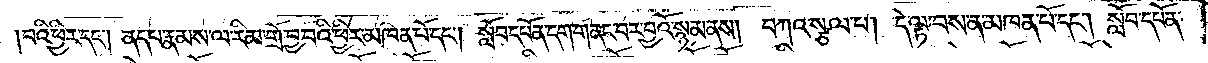བའི་ཕྱིར་དང༌། ནད་པ་རྣམས་ལ་རིམ་གྲོ་བྱ་བའི་ཕྱིར་མཁན་པོ་དང༌། སློབ་དཔོན་དག་གནང་བར་བྱའོ་སྙམ་ནས། བཀའ་སྩལ་པ། དེ་ལྟ་བས་ན་མཁན་པོ་དང༌། སློབ་དཔོན་
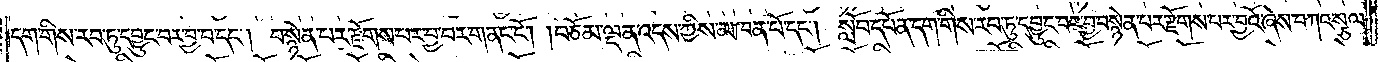དག་གིས་རབ་ཏུ་དབྱུང་བར་བྱ་བ་དང༌། བསྙེན་པར་རྫོགས་པར་བྱ་བར་གནང་ངོ༌། །བཅོམ་ལྡན་འདས་ཀྱིས་མཁན་པོ་དང༌། སློབ་དཔོན་དག་གིས་རབ་ཏུ་དབྱུང་བར་བྱ་བསྙེན་པར་རྫོགས་པར་བྱའོ་ཞེས་བཀའ་སྩལ་
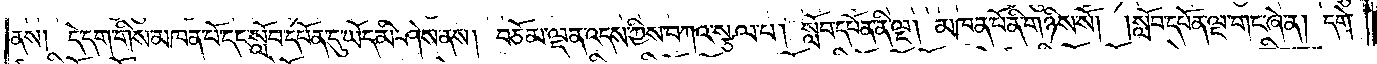ནས། དེ་དག་གིས་མཁན་པོ་དང་སློབ་དཔོན་དུ་ཡོད་མི་ཤེས་ནས། བཅོམ་ལྡན་འདས་ཀྱིས་བཀའ་སྩལ་པ། སློབ་དཔོན་ནི་ལྔ། མཁན་པོ་ནི་གཉིས་སོ། །སློབ་དཔོན་ལྔ་གང་ཞེ་ན། དགེ་
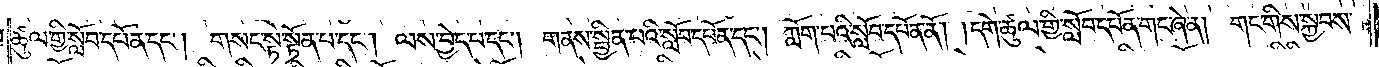ཚུལ་གྱི་སློབ་དཔོན་དང༌། གསང་སྟེ་སྟོན་པ་དང༌། ལས་བྱེད་པ་དང༌། གནས་སྦྱིན་པའི་སློབ་དཔོན་དང༌། ཀློག་པའི་སློབ་དཔོན་ནོ། །དགེ་ཚུལ་གྱི་སློབ་དཔོན་གང་ཞེ་ན། གང་གིས་སྐྱབས་
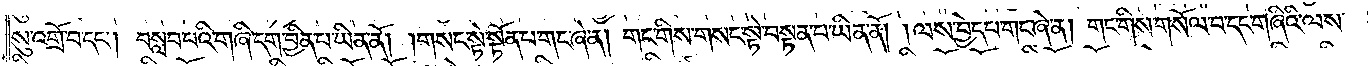སུ་འགྲོ་བ་དང༌། བསླབ་པའི་གཞི་དག་བྱིན་པ་ཡིན་ནོ། །གསང་སྟེ་སྟོན་པ་གང་ཞེ་ན། གང་གིས་གསང་སྟེ་བསྟན་པ་ཡིན་ནོ། །ལས་བྱེད་པ་གང་ཞེ་ན། གང་གིས་གསོལ་བ་དང་གཞིའི་ལས་
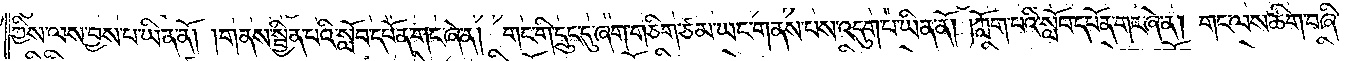ཀྱིས་ལས་བྱས་པ་ཡིན་ནོ། །གནས་སྦྱིན་པའི་སློབ་དཔོན་གང་ཞེ་ན། གང་གི་དྲུང་དུ་ཞག་གཅིག་ཙམ་ཡང་གནས་པས་འདུག་པ་ཡིན་ནོ། །ཀློག་པའི་སློབ་དཔོན་གང་ཞེ་ན། གང་ལས་ཚིག་བཞི་
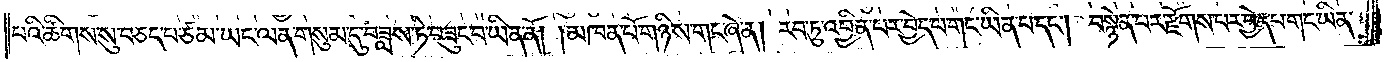པའི་ཚིགས་སུ་བཅད་པ་ཙམ་ཡང་ལན་གསུམ་དུ་བཟླས་ཏེ་བཟུང་བ་ཡིན་ནོ། །མཁན་པོ་གཉིས་གང་ཞེ་ན། རབ་ཏུ་འབྱིན་པར་བྱེད་པ་གང་ཡིན་པ་དང༌། བསྙེན་པར་རྫོགས་པར་བྱེད་པ་གང་ཡིན་
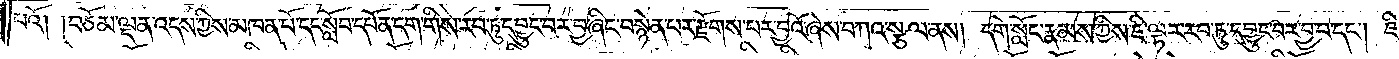པའོ། །བཅོམ་ལྡན་འདས་ཀྱིས་མཁན་པོ་དང་སློབ་དཔོན་དག་གིས་རབ་ཏུ་དབྱུང་བར་བྱ་ཞིང་བསྙེན་པར་རྫོགས་པར་བྱའོ་ཞེས་བཀའ་སྩལ་ནས། དགེ་སློང་རྣམས་ཀྱིས་ཇི་ལྟར་རབ་ཏུ་དབྱུང་བར་བྱ་བ་དང༌། ཇི་
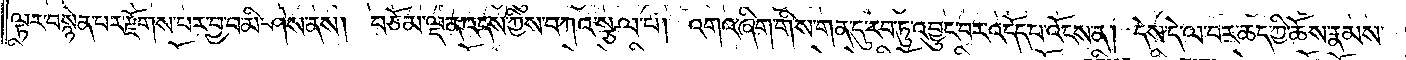ལྟར་བསྙེན་པར་རྫོགས་པ་བྱ་བ་མི་ཤེས་ནས། བཅོམ་ལྡན་འདས་ཀྱིས་བཀའ་སྩལ་པ། འགའ་ཞིག་གིས་གན་དུ་རབ་ཏུ་འབྱུང་བར་འདོད་པ་འོངས་ན། དེས་དེ་ལ་བར་ཆད་ཀྱི་ཆོས་རྣམས་
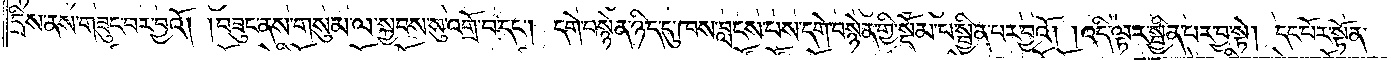དྲིས་ནས་གཟུང་བར་བྱའོ། །བཟུང་ནས་གསུམ་ལ་སྐྱབས་སུ་འགྲོ་བ་དང༌། དགེ་བསྙེན་ཉིད་དུ་ཁས་བླངས་པས་དགེ་བསྙེན་གྱི་སྡོམ་པ་སྦྱིན་པར་བྱའོ། །འདི་ལྟར་སྦྱིན་པར་བྱ་སྟེ། དང་པོར་སྟོན་
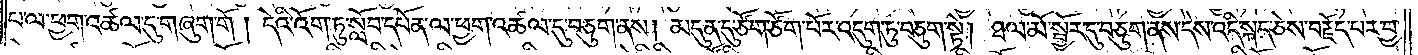པ་ལ་ཕྱག་འཚལ་དུ་གཞུག་གོ །དེའི་འོག་ཏུ་སློབ་དཔོན་ལ་ཕྱག་འཚལ་དུ་བཅུག་ནས། མདུན་དུ་ཙོག་ཙོག་པོར་འདུག་ཏུ་བཅུག་སྟེ། ཐལ་མོ་སྦྱོར་དུ་བཅུག་ནས་དེས་འདི་སྐད་ཅེས་བརྗོདཔར་བྱ་
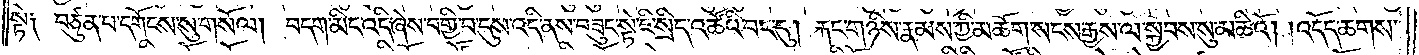སྟེ༑ བཙུན་པ་དགོངས་སུ་གསོལ། བདག་མིང་འདི་ཞེས་བགྱི་བ་དུས་འདི་ནས་བཟུང་སྟེ་ཇི་སྲིད་འཚོའི་བར་དུ། རྐང་གཉིས་རྣམས་ཀྱི་མཆོག་སངས་རྒྱས་ལ་སྐྱབས་སུ་མཆིའོ། །འདོད་ཆགས་
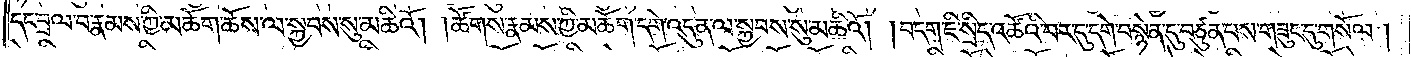དང་བྲལ་བ་རྣམས་ཀྱི་མཆོག་ཆོས་ལ་སྐྱབས་སུ་མཆིའོ། །ཚོགས་རྣམས་ཀྱི་མཆོག་དགེ་འདུན་ལ་སྐྱབས་སུ་མཆིའོ། །བདག་ཇི་སྲིད་འཚོའི་བར་དུ་དགེ་བསྙེན་དུ་བཙུན་པས་གཟུང་དུ་གསོལ།
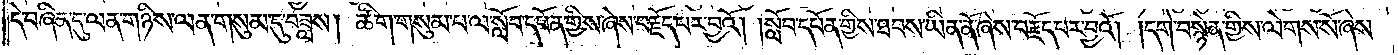དེ་བཞིན་དུ་ལན་གཉིས་ལན་གསུམ་དུ་བཟླས། ཚིག་གསུམ་པ་ལ་སློབ་དཔོན་གྱིས་ཞེས་བརྗོད་པར་བྱའོ། །སློབ་དཔོན་གྱིས་ཐབས་ཡིན་ནོ་ཞེས་བརྗོད་པར་བྱའོ། །དགེ་བསྙེན་གྱིས་ལེགས་སོ་ཞེས་
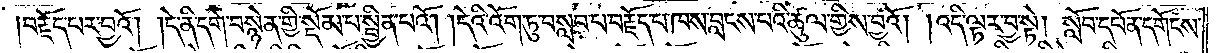བརྗོད་པར་བྱའོ། །དེ་ནི་དགེ་བསྙེན་གྱི་སྡོམ་པ་སྦྱིན་པའོ། །དེའི་འོག་ཏུ་བསླབ་པ་བརྗོད་པ་ཁས་བླངས་པའི་ཚུལ་གྱིས་བྱའོ། །འདི་ལྟར་བྱ་སྟེ། སློབ་དཔོན་དགོངས་
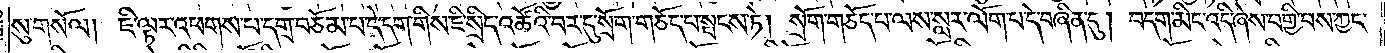སུ་གསོལ། ཇི་ལྟར་འཕགས་པ་དགྲ་བཅོམ་པ་དེ་དག་གིས་ཇི་སྲིད་འཚོའི་བར་དུ་སྲོག་གཅོད་པ་སྤངས་ཏེ། སྲོག་གཅོད་པ་ལས་སླར་ལོག་པ་དེ་བཞིན་དུ། བདག་མིང་འདི་ཞེས་བགྱི་བས་ཀྱང་
